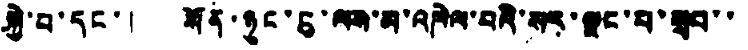སྐྱེ་བ་དང་། སོན་ཉུང་ངུ་ལས་མ་འཁེལ་བའི་སར་ལྗང་པ་སྲབ་་
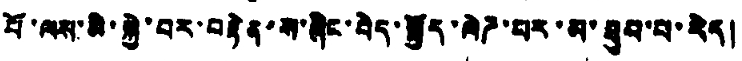པོ་ལས་མི་སྐྱེ་བར་བརྟེན་ས་ཞིང་བེད་སྤྱོད་ལེཌ་པར་མ་ཐུབ་པ་རེད།
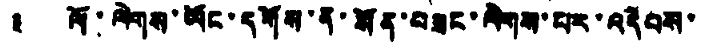༣ ལོ་ལེགས་ཡོང་དགོས་ན་སོན་བཟང་ལེགས་པར་འདེབས་
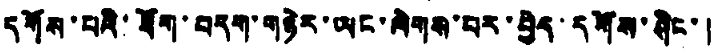དགོས་པའི་ཐོག་བདག་གཉེར་ཡང་ལེགས་པར་བྱེད་དགོས་ཤིང་།
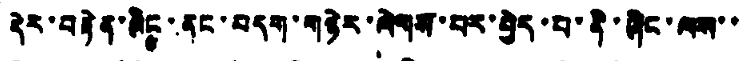དེར་བརྟེན་ཞིང་ནང་བདག་གཉེར་ལེགས་པར་བྱེད་པ་ནི་ཞིང་ལས་་
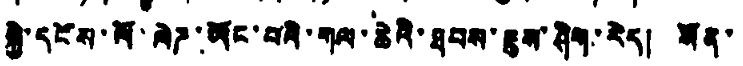སྐྱེ་དངོས་ལོ་ལེཌ་ཡོང་པའི་གལ་ཆེའི་ཐབས་ཇུས་ཤིག་རེད། སོན་
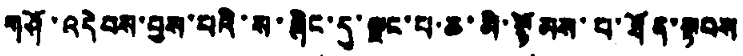གཤོ་འདེབས་བྱས་པའི་ས་ཞིང་དུ་ལྗང་པ་ཆ་མི་སྙོམས་པ་ཐོན་སྟབས
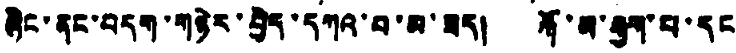ཞིང་ནང་བདག་གཉེར་བྱེད་དཀའ་བ་མ་ཟད། རྐོ་མ་རྒྱག་པ་དང
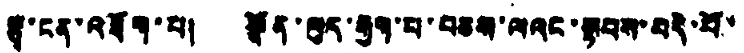རྩྭ་ངན་འཐོག་པ། སྣོན་ལུད་རྒྱག་པ་བཅས་ལའང་སྟབས་བདེ་པོ་
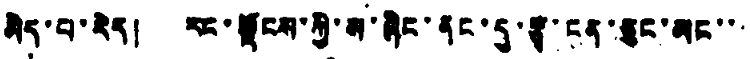མེད་པ་རེད། རང་ལྗོངས་ཀྱི་ས་ཞིང་ནང་དུ་རྩྭ་ངན་ཅུང་མང་་
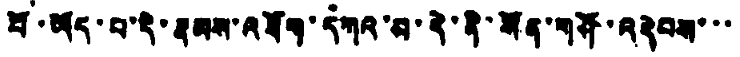པོ་ཡོད་པ་དེ་རྣམས་འཐོག་དཀའ་མ་དེ་ནི་སོན་གཤོ་འདེབས་་་
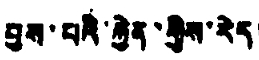བྱས་པའི་རྐྱེན་གྱིས་རེད།
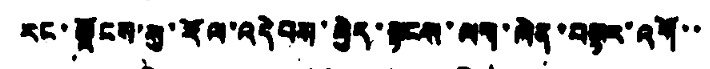རང་ལྗོངས་སུ་རོལ་འདེབས་བྱེད་སྟངས་ལག་ལེན་བསྟར་འགོ་་
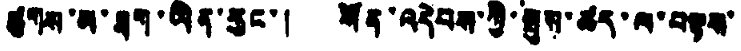ཚུགས་མ་ཐག་ཡིན་རུང་། སོན་འདེབས་ཀྱི་སྤུས་ཚད་ལ་བལྟས་
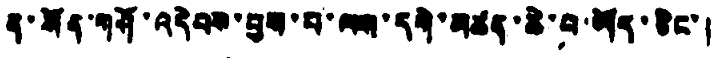ནུ་སོན་གཤོ་འདེབས་བྱས་པ་ལས་དགེ་མཚན་ཆི་བ་ཡོད་ཅིང་།
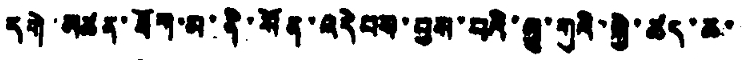དགེ་མཚན་ཐོག་མ་ནི་སོན་འདེབས་བྱས་པའི་མྱུ་གུའི་སྐྱེ་ཚད་ཆ་
